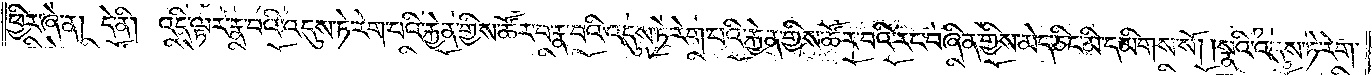ཕྱིར་ཞེ་ན། དེ་ནི། འདི་ལྟར་རྣ་བའི་འདུས་ཏེ་རེག་པའི་རྐྱེན་གྱིས་ཚོར་བ་རྣ་བའི་འདུས་ཏེ་རེག་པའི་རྐྱེན་གྱིས་ཚོར་བའི་རང་བཞིན་གྱིས་མེད་ཅིང་མི་དམིགས་སོ། །སྣའི་འདུས་ཏེ་རེག་
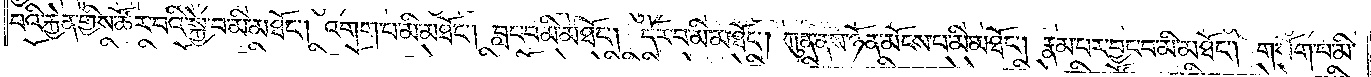པའི་རྐྱེན་གྱིས་ཚོར་བའི་སྐྱེ་བ་མི་མཐོང༌། འགག་པ་མི་མཐོང༌། བླང་བ་མི་མཐོང༌། དོར་བ་མི་མཐོང༌། ཀུན་ནས་ཉོན་མོངས་པ་མི་མཐོང༌། རྣམ་པར་བྱང་བ་མི་མཐོང༌། གསོག་པ་མི་
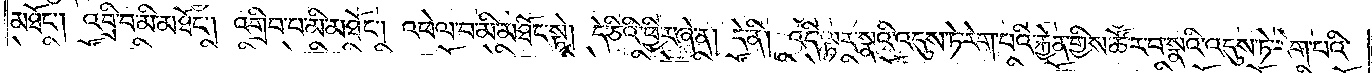མཐོང༌། འབྲི་བ་མི་མཐོང༌། འགྲིབ་པ་མི་མཐོང༌། འཕེལ་བ་མི་མཐོང་སྟེ། དེ་ཅིའི་ཕྱིར་ཞེ་ན། དེ་ནི། འདི་ལྟར་སྣའི་འདུས་ཏེ་རེག་པའི་རྐྱེན་གྱིས་ཚོར་བ་སྣའི་འདུས་ཏེ་རེག་པའི་
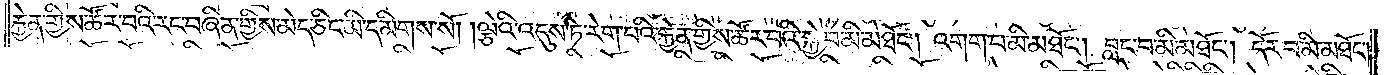རྐྱེན་གྱིས་ཚོར་བའི་རང་བཞིན་གྱིས་མེད་ཅིང་མི་དམིགས་སོ། །ལྕེའི་འདུས་ཏེ་རེག་པའི་རྐྱེན་གྱིས་ཚོར་བའི་སྐྱེ་བ་མི་མཐོང༌། འགག་པ་མི་མཐོང༌། བླང་བ་མི་མཐོང༌། དོར་བ་མི་མཐོང༌།
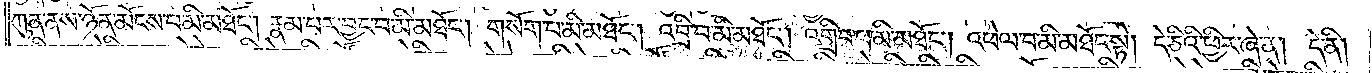ཀུན་ནས་ཉོན་མོངས་པ་མི་མཐོང༌། རྣམ་པར་བྱང་བ་མི་མཐོང༌། གསོག་པ་མི་མཐོང༌། འབྲི་བ་མི་མཐོང༌། འགྲིབ་པ་མི་མཐོང༌། འཕེལ་བ་མི་མཐོང་སྟེ། དེ་ཅིའི་ཕྱིར་ཞེ་ན། དེ་ནི།
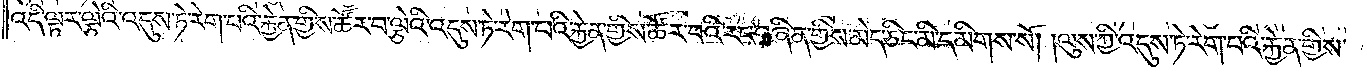འདི་ལྟར་ལྕེའི་འདུས་ཏེ་རེག་པའི་རྐྱེན་གྱིས་ཚོར་བ་ལྕེའི་འདུས་ཏེ་རེག་པའི་རྐྱེན་གྱིས་ཚོར་བའི་རང་བཞིན་གྱིས་མེད་ཅིང་མི་དམིགས་སོ། །ལུས་ཀྱི་འདུས་ཏེ་རེག་པའི་རྐྱེན་གྱིས་
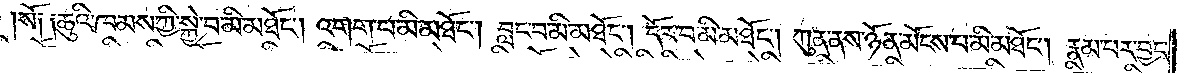སོ༑ ༑ཆུའི་ཁམས་ཀྱི་སྐྱེ་བ་མི་མཐོང༌། འགག་པ་མི་མཐོང༌། བླང་བ་མི་མཐོང༌། དོར་བ་མི་མཐོང༌། ཀུན་ནས་ཉོན་མོངས་པ་མི་མཐོང༌། རྣམ་པར་བྱང་
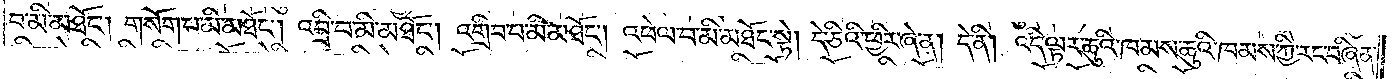བ་མི་མཐོང༌། གསོག་པ་མི་མཐོང༌། འབྲི་བ་མི་མཐོང༌། འགྲིབ་པ་མི་མཐོང༌། འཕེལ་བ་མི་མཐོང་སྟེ། དེ་ཅིའི་ཕྱིར་ཞེ་ན། དེ་ནི། འདི་ལྟར་ཆུའི་ཁམས་ཆུའི་ཁམས་ཀྱི་རང་བཞིན་
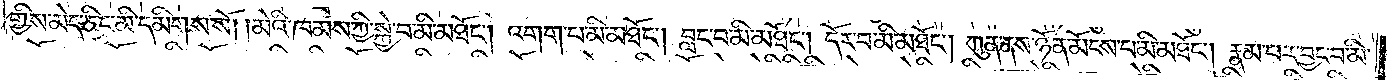གྱིས་མེད་ཅིང་མི་དམིགས་སོ། །མེའི་ཁམས་ཀྱི་སྐྱེ་བ་མི་མཐོང༌། འགག་པ་མི་མཐོང༌། བླང་བ་མི་མཐོང༌། དོར་བ་མི་མཐོང༌། ཀུན་ནས་ཉོན་མོངས་པ་མི་མཐོང༌། རྣམ་པར་བྱང་བ་མི་
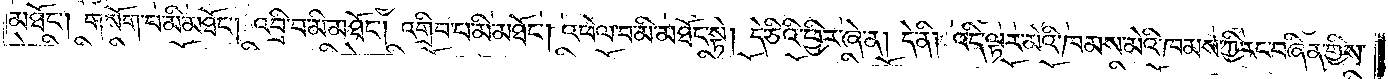མཐོང༌། གསོག་པ་མི་མཐོང༌། འབྲི་བ་མི་མཐོང༌། འགྲིབ་པ་མི་མཐོང༌། འཕེལ་བ་མི་མཐོང་སྟེ། དེ་ཅིའི་ཕྱིར་ཞེ་ན། དེ་ནི། འདི་ལྟར་མེའི་ཁམས་མེའི་ཁམས་ཀྱི་རང་བཞིན་གྱིས་
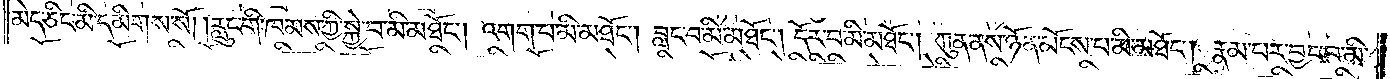མེད་ཅིང་མི་དམིགས་སོ། །རླུང་གི་ཁམས་ཀྱི་སྐྱེ་བ་མི་མཐོང༌། འགག་པ་མི་མཐོང༌། བླང་བ་མི་མཐོང༌། དོར་བ་མི་མཐོང༌། ཀུན་ནས་ཉོན་མོངས་པ་མི་མཐོང༌། རྣམ་པར་བྱང་བ་མི་
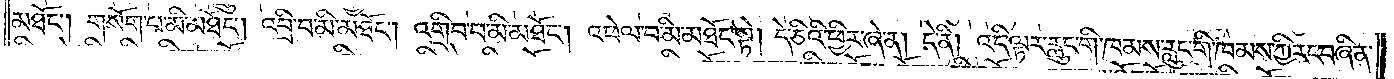མཐོང༌། གསོག་པ་མི་མཐོང༌། འབྲི་བ་མི་མཐོང༌། འགྲིབ་པ་མི་མཐོང༌། འཕེལ་བ་མི་མཐོང་སྟེ། དེ་ཅིའི་ཕྱིར་ཞེ་ན། དེ་ནི། འདི་ལྟར་རླུང་གི་ཁམས་རླུང་གི་ཁམས་ཀྱི་རང་བཞིན་
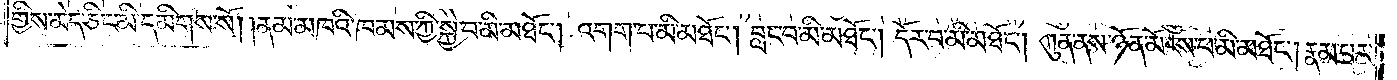གྱིས་མེད་ཅིང་མི་དམིགས་སོ། །ནམ་མཁའི་ཁམས་ཀྱི་སྐྱེ་བ་མི་མཐོང༌། འགག་པ་མི་མཐོང༌། བླང་བ་མི་མཐོང༌། དོར་བ་མི་མཐོང༌། ཀུན་ནས་ཉོན་མོངས་པ་མི་མཐོང༌། རྣམ་པར་
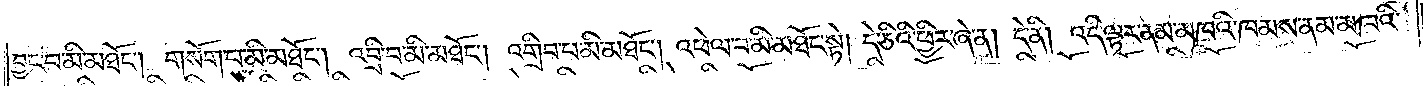བྱང་བ་མི་མཐོང༌། གསོག་པ་མི་མཐོང༌། འབྲི་བ་མི་མཐོང༌། འགྲིབ་པ་མི་མཐོང༌། འཕེལ་བ་མི་མཐོང་སྟེ། དེ་ཅིའི་ཕྱིར་ཞེ་ན། དེ་ནི། འདི་ལྟར་ནམ་མཁའི་ཁམས་ནམ་མཁའི་
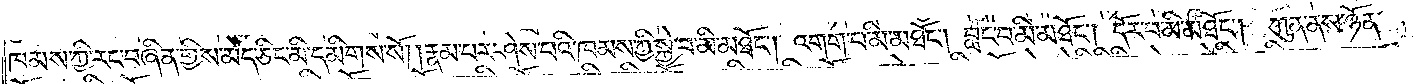ཁམས་ཀྱི་རང་བཞིན་གྱིས་མེད་ཅིང་མི་དམིགས་སོ། །རྣམ་པར་ཤེས་པའི་ཁམས་ཀྱི་སྐྱེ་བ་མི་མཐོང༌། འགག་པ་མི་མཐོང༌། བླང་བ་མི་མཐོང༌། དོར་བ་མི་མཐོང༌། ཀུན་ནས་ཉོན་
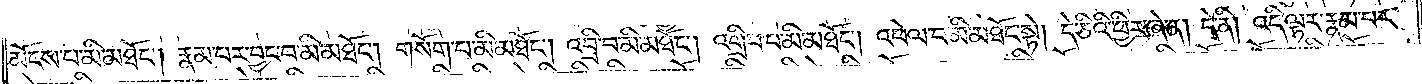མོངས་པ་མི་མཐོང༌། རྣམ་པར་བྱང་བ་མི་མཐོང༌། གསོག་པ་མི་མཐོང༌། འབྲི་བ་མི་མཐོང༌། འགྲིབ་པ་མི་མཐོང༌། འཕེལ་བ་མི་མཐོང་སྟེ། དེ་ཅིའི་ཕྱིར་ཞེ་ན། དེ་ནི། འདི་ལྟར་རྣམ་པར་
